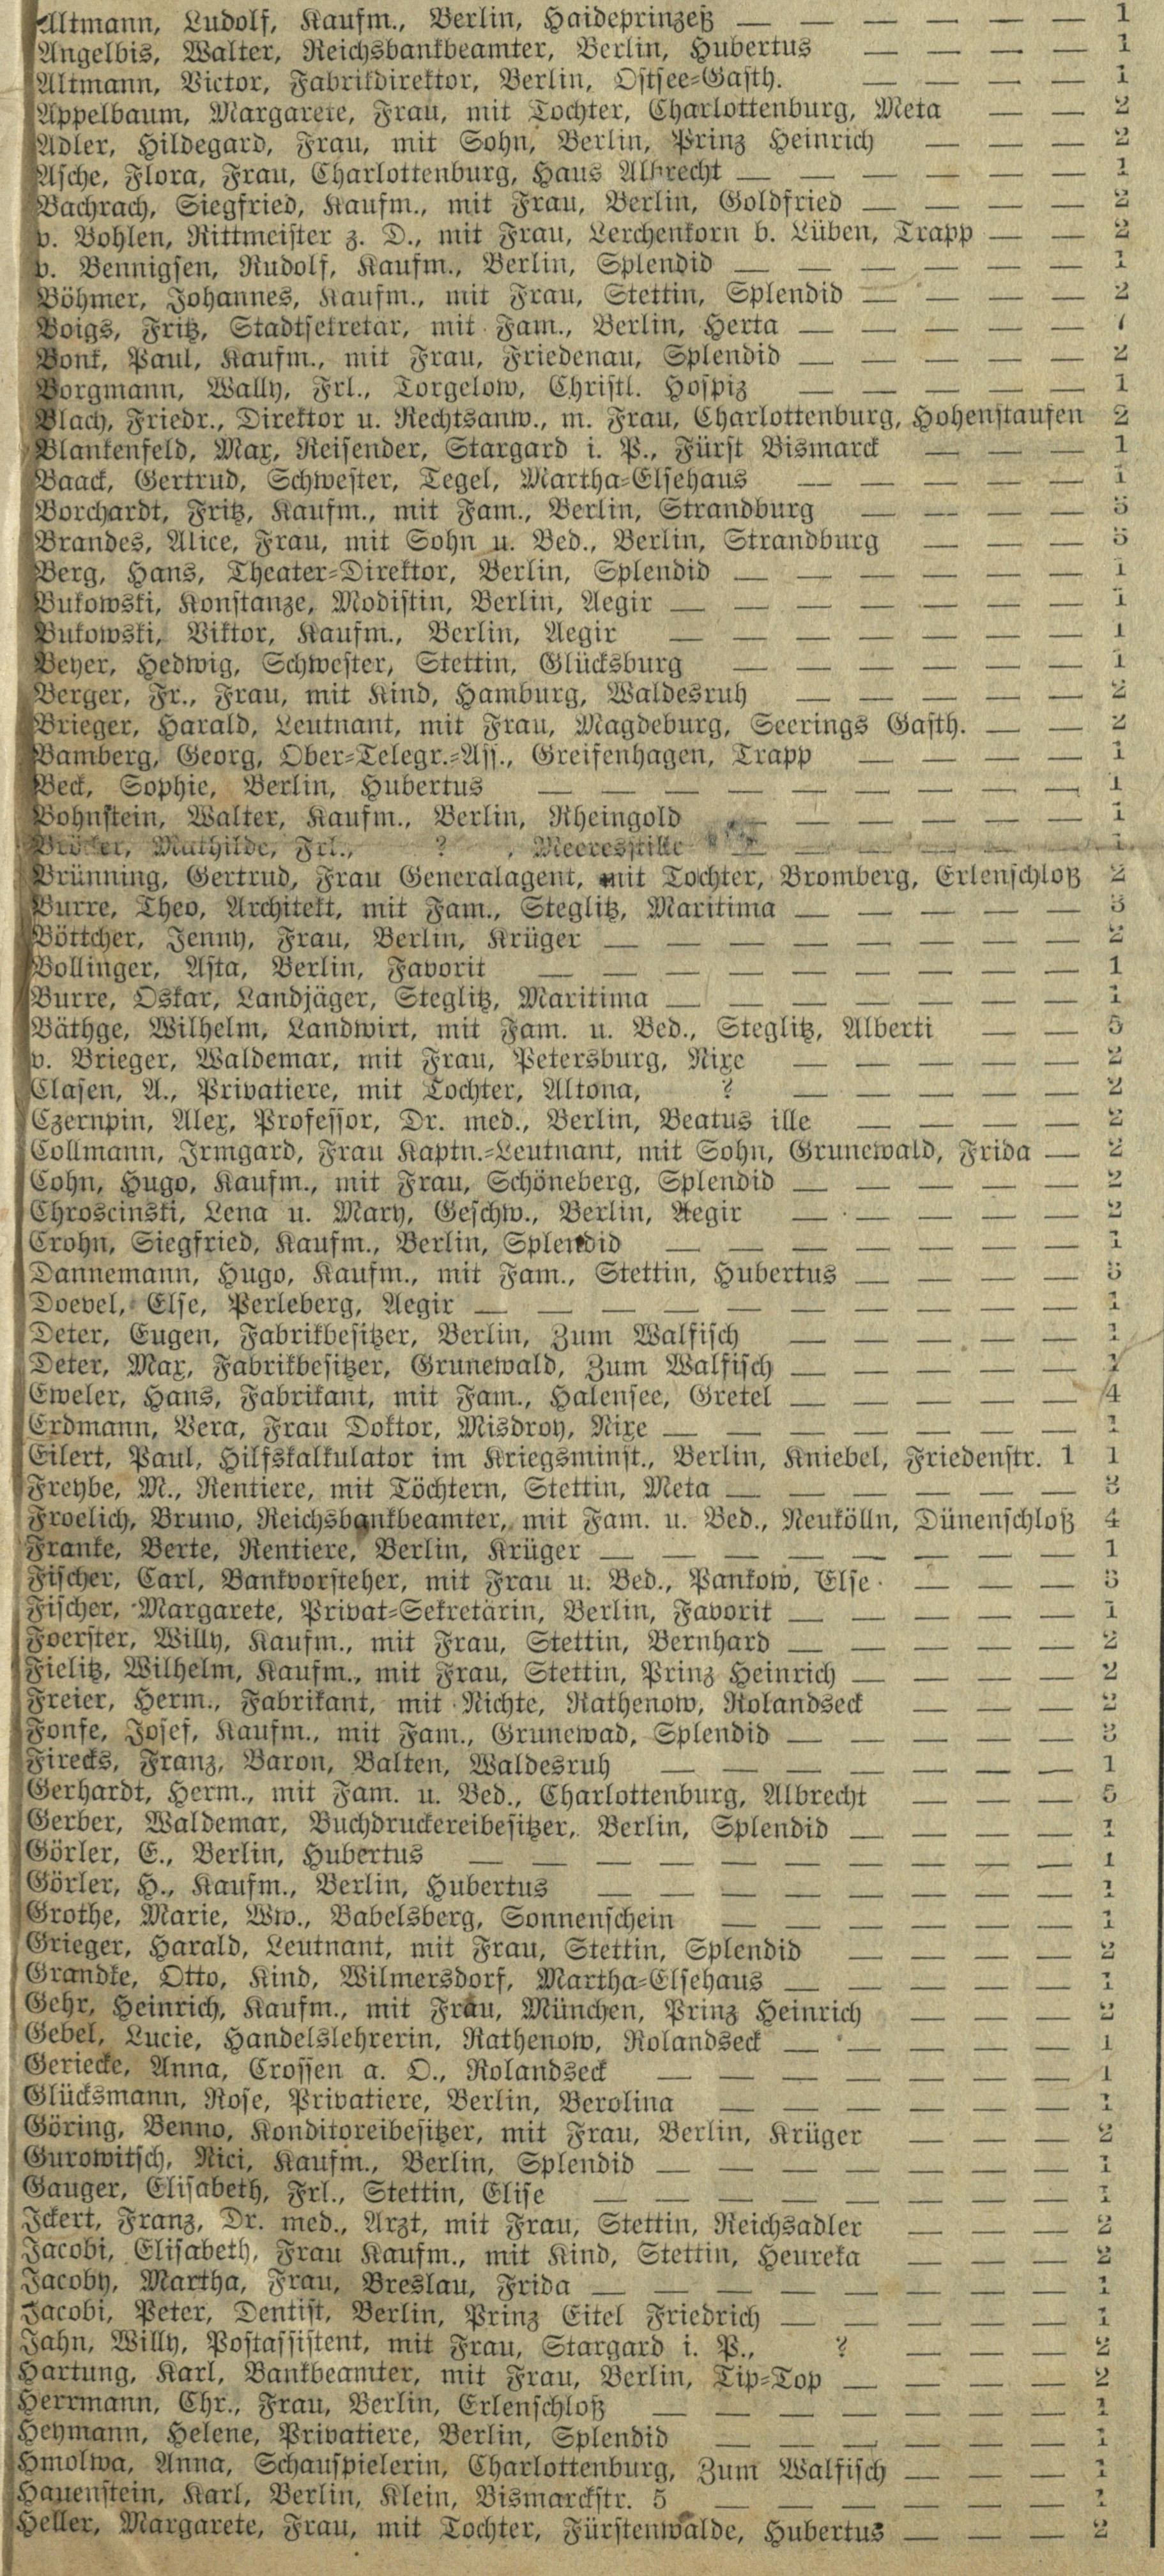Altmann, Ludolf, Kaufm., Berlin, Haideprinzeß | 1
Angelbis, Walter, Reichsbankbeamter, Berlin, Hubertus | 1
Altmann, Victor, Fabrikdirektor, Berlin, Ostsee=Gasth. | 1
Appelbaum, Margarete, Frau, mit Tochter, Charlottenburg, Meta | 2
Adler, Hildegard, Frau, mit Sohn, Berlin, Prinz Heinrich | 2
Asche, Flora, Frau, Charlottenburg, Haus Albrecht | 1
Bachrach, Siegfried, Kaufm., mit Frau, Berlin, Goldfried | 2
v. Bohlen, Rittmeister z. D., mit Frau, Lerchenkorn b. Lüben, Trapp | 2
v. Bennigsen, Rudolf, Kaufm., Berlin, Splendid | 1
Böhmer, Johannes, Kaufm., mit Frau, Stettin, Splendid | 2
Boigs, Fritz, Stadtsekretär, mit Fam., Berlin, Herta | 7
Bonk, Paul, Kaufm., mit Frau, Friedenau, Splendid | 2
Borgmann, Wally, Frl., Torgelow, Christl. Hospiz | 1
Blach, Friedr., Direktor u. Rechtsanw., m. Frau, Charlottenburg, Hohenstaufen | 2
Blankenfeld, Max, Reisender, Stargard i. P., Fürst Bismarck | 1
Baack, Gertrud, Schwester, Tegel, Martha=Elsehaus | 1
Borchardt, Fritz, Kaufm., mit Fam., Berlin, Strandburg | 3
Brandes, Alice, Frau, mit Sohn u. Bed., Berlin, Strandburg | 3
Berg, Hans, Theater=Direktor, Berlin, Splendid | 1
Busowski, Konstanze, Modistin, Berlin, Aegir | 1
Busowski, Viktor, Kaufm., Berlin, Aegir | 1
Beyer, Hedwig, Schwester, Stettin, Glücksburg | 1
Berger, Fr., Frau, mit Kind, Hamburg, Waldesruh | 2
Brieger, Harald, Leutnant, mit Frau, Magdeburg, Seerings Gasth. | 2
Bamberg, Georg, Ober=Telegr.=Ass., Greifenhagen, Trapp | 1
Beck, Sophie, Berlin, Hubertus | 1
Bohnstein, Walter, Kaufm., Berlin, Rheigold | 1
Bröcker, Mathilde, Frl., ? , Meeresstille | 1
Brünning, Gertrud, Frau Generalagent, mit Tochter, Bromberg, Erlenschloß | 2
Burre, Theo, Architekt, mit Fam., Steglitz, Maritima | 3
Böttcher, Jenny, Frau, Berlin, Krüger | 2
Bollinger, Asta, Berlin, Favorit | 1
Burre, Oskar, Landjäger, Steglitz, Maritima | 1
Bäthge, Wilhelm, Landwirt, mit Fam. u. Bed., Steglitz, Alberti | 5
v. Brieger, Waldemar, mit Frau, Petersburg, Nixe | 2
Clasen, A., Privatiere, mit Tochter, Altona, ? | 2
Czernpin, Alex, Professor, Dr. med., Berlin, Beatus ille | 2
Collmann, Irmgard, Frau Kaptn.=Leutnant, mit Sohn, Grunewald, Frida | 2
Cohn, Hugo, Kaufm., mit Frau, Schöneberg, Splendid | 2
Chroscinski, Lena u. Mary, Geschw., Berlin, Aegir | 2
Crohn, Siegfried, Kaufm., Berlin, Splendid | 1
Dannemann, Hugo, Kaufm., mit Fam., Stettin, Hubertus | 3
Doevel, Else, Perleberg, Aegir | 1
Deter, Eugen, Fabrikbesitzer, Berlin, Zum Walfisch | 1
Deter, Max, Fabrikbesitzer, Grunewald, Zum Walfisch | 1
Eweler, Hans, Fabrikant, mit Fam., Halensee, Gretel | 4
Erdmann, Vera, Frau Doktor, Misdroy, Nixe | 1
Eilert, Paul, Hilfskalkulator im Kriegsminst., Berlin, Kniebel, Friedenstr. 1 | 1
Freybe, M., Rentiere, mit Töchtern, Stettin, Meta | 3
Froelich, Bruno, Reichsbankbeamter, mit Fam. u. Bed., Neukölln, Dünenschloß | 4
Franke, Berte, Rentiere, Berlin, Krüger | 1
Fischer, Carl, Bankvorsteher, mit Frau u. Bed., Pankow, Else | 3
Fischer, Margarete, Privat=Sekretärin, Berlin, Favorit | 1
Foerster, Willy, Kaufm., mit Frau, Stettin, Bernhard | 2
Fielitz, Wilhelm, Kaufm., mit Frau, Stettin, Prinz Heinrich | 2
Freier, Herm., Fabrikant, mit Nichte, Rathenow, Rolandseck | 2
Fonfe, Josef, Kaufm., mit Fam., Grunewad, Splendid | 3
Firecks, Franz, Baron, Balten, Waldesruh | 1
Gerhardt, Herm., mit Fam. u. Bed., Charlottenburg, Albrecht | 5
Gerber, Waldemar, Buchdruckereibesitzer, Berlin, Splendid | 1
Görler, E., Berlin, Hubertus | 1
Görler, H., Kaufm., Berlin, Hubertus | 1
Grothe, Marie, Ww., Babelsberg, Sonnenschein | 1
Grieger, Harald, Leutnant, mit Frau, Stettin, Splendid | 2
Grandke, Otto, Kind, Wilmersdorf, Martha=Elsehaus | 1
Gehr, Heinrich, Kaufm., mit Frau, München, Prinz Heinrich | 2
Gebel, Lucie, Handelslehrerin, Rathenow, Rolandseck | 1
Geriecke, Anna, Crossen, a. O., Rolandseck | 1
Glücksmann, Rose, Privatiere, Berlin, Berolina | 1
Göring, Benno, Konditoreibesitzer, mit Frau, Berlin, Krüger | 2
Gurowitsch, Nici, Kaufm., Berlin, Splendid | 1
Gauger, Elisabeth, Frl., Stettin, Elise | 1
Ickert, Franz, Dr. med., Arzt, mit Frau, Stettin, Reichsadler | 2
Jacobi, Elisabeth, Frau Kaufm., mit Kind, Stettin, Heureka | 2
Jacoby, Martha, Frau, Breslau, Frida | 1
Jacobi, Peter, Dentist, Berlin, Prinz Eitel Friedrich | 1
Jahn, Willy, Postassistent, mit Frau, Stargard i. P., ? | 2
Hartung, Karl, Bankbeamter, mit Frau, Berlin, Tip=Top | 2
Herrmann, Chr., Frau, Berlin, Erlenschloß | 1
Heymann, Helene, Privatiere, Berlin, Splendid | 1
Hmolwa, Anna, Schauspielerin, Charlottenburg, Zum Walfisch | 1
Hauenstein, Karl, Berlin, Klein, Bismarckstr. 5 | 1
Heller, Margarete, Frau, mit Tochter, Fürstenwalde, Hubertus | 2
